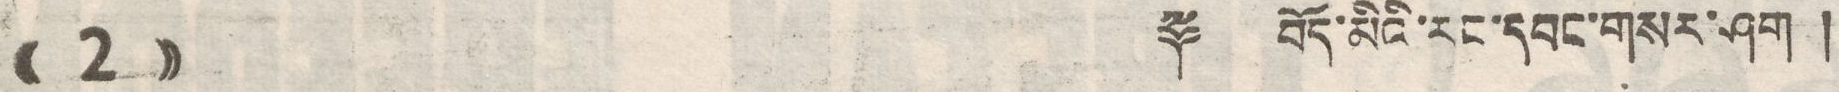(( 2 )) ༈ བོད་མིའི་རང་དབང་གསར་ཤོག །
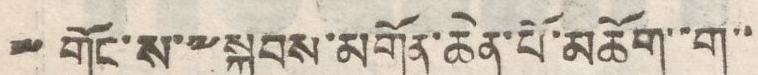༈ ༸གོང་ས་༸སྐྱབས་མགོན་ཆེན་པོ་མཆོག་་ག་་
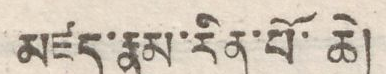མཛད་རྣམ་རིན་པོ་ཆེ།
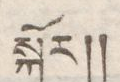སྐོར།།
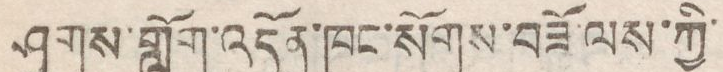ཤུགས་གློག་འདོན་ཁང་སོགས་བཟོ་ལས་ཀྱི་
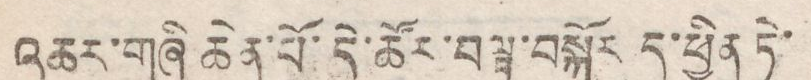འཆར་གཞི ཆེན་པོ་དེ་ཚོར་བལྟ་བསྐོར དུ་ཕྱིན ཏེ་
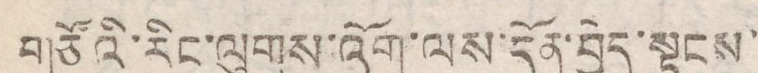གཙོའི་རིང་ལུགས་འོག་ལས་དོན་བྱེད་སྟངས་
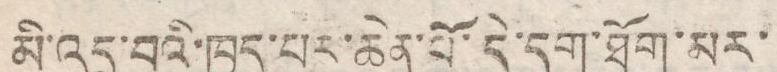མི་འདྲ་བའི་ཁྱད་པར་ཆེན་པོ་དེ་དག་ཐོག་མར་
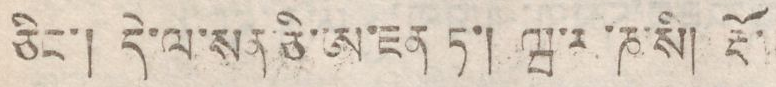ཅིང་། དེ་ལ་སན་ཅི་ཨ་ཇན་ཏ་། ཝ་ར་ཎ་སི། རྡོ་
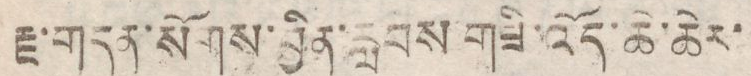རྗ་གདན་སོགས་ཕྱིན་རླབས གཟི་འོད་ཆེ་ཆེར་
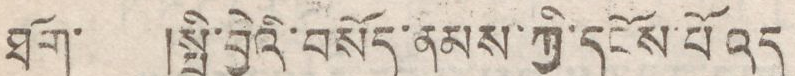ཐོག་ །སྤྱི་བྱེའི་བསོད་ནམས་ཀྱི་དངོས པོ འདུ
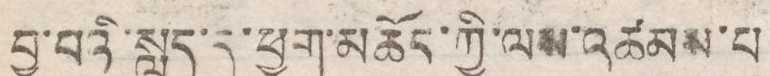བྱ་བའི་སླད་དུ་ཕྱག་མཆོད་ཀྱི་ལས་འཚམས་པ
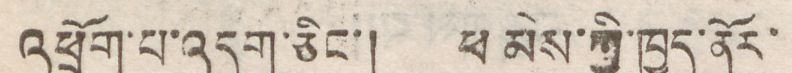འཕྲོད་པ་འདུག་ཅིང་། ཕ མེས་ཀྱི་ཁྱད་ནོར་
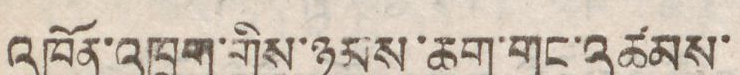འཁོན་འཁྲུག་གིས་ཉམས་ཆག་གང་འཚམས་
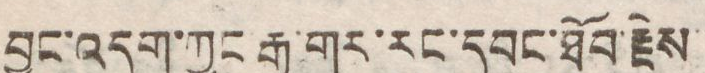བྱུང་འདུག་ཀྱང་རྒྱ་གར་རང་དབང་ཐོབ་རྗེས
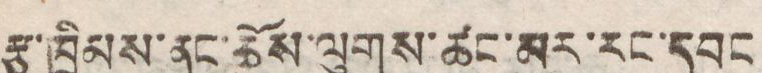རྩ་ཁྲིམས་ནང་ཆོས་ལུགས་ཚང་མར་རང་དབང
